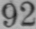92
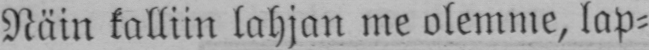Näin kalliin lahjan me olemme, lap-
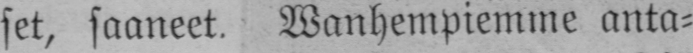set, saaneet, Wanhempiemme anta-
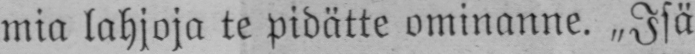mia lahjoja te pidätte ominanne. „Isä
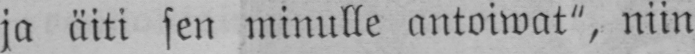ja äiti sen minulle antoiwat", niin
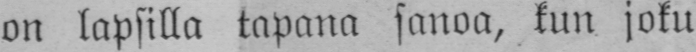on lapsilla tapana sanoa, kun joku
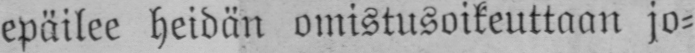epäilee heidän omistusoikeuttaan jo-
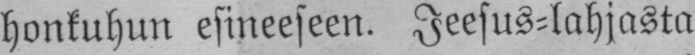honkuhun esineeseen. Jeesus-lahjasta
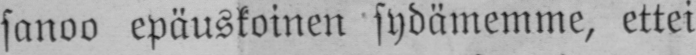sanoo epäuskoinen sydämemme, ettei
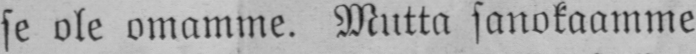se ole omamme. Mutta sanokaamme
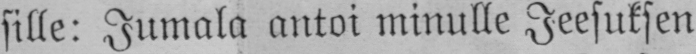sille: Jumala antoi minulle Jeesuksen
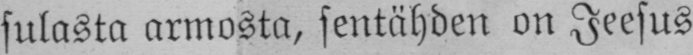sulasta armosta, sentähden on Jeesus
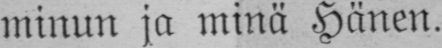minun ja minä Hänen.
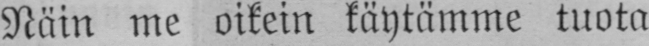Näin me oikein käytämme tuota
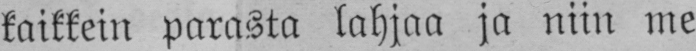kaikkein parasta lahjaa ja niin me
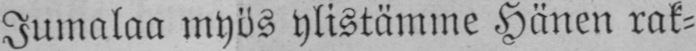Jumalaa myös ylistämme Hänen rak-
